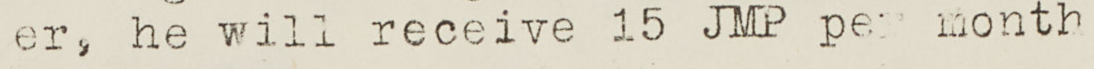er, he will receive 15 JMP per month
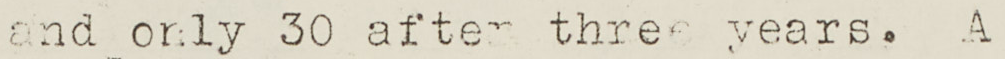and only 30 after three years. A
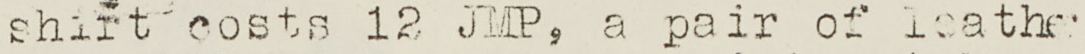shirt costs 12 JMP, a pair of leather
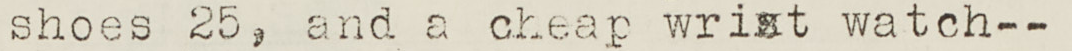shoes 25, and a cheap wrist watch--
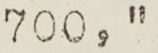700,"
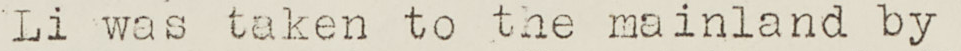Li was taken to the mainland by
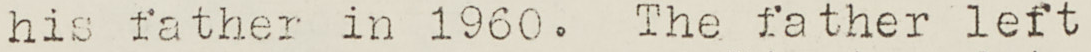his father in 1960. The father left
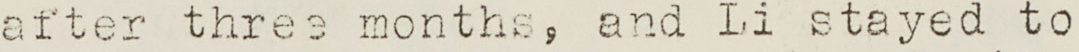after three months, and Li stayed to
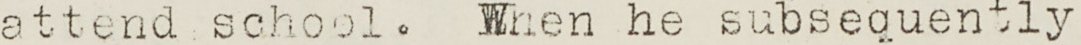attend school. When he subsequently
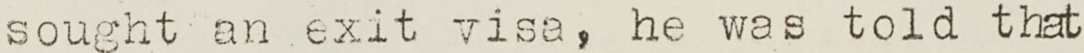sought an exit visa, he was told that
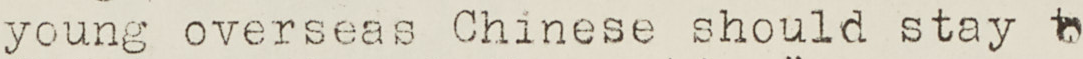young overseas Chinese should stay to
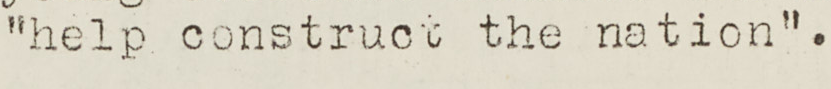"help construct the nation".
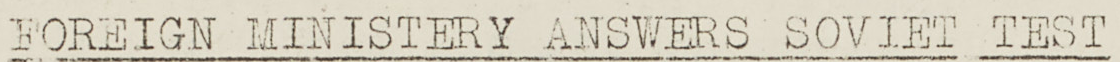FOREIGN MINISTERY ANSWERS SOVIET TEST
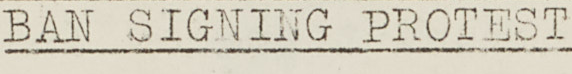BAN SIGNING PROTEST
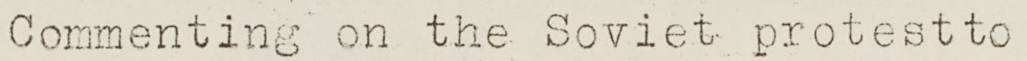Commenting on the Soviet protest to
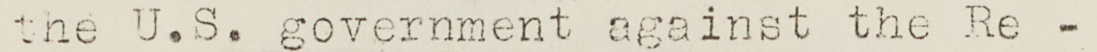the U.S. government against the Re-
